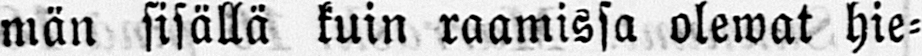män sisällä kuin raamissa olewat hie-
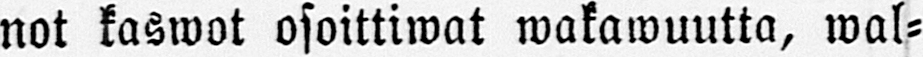not kaswot osoittiwat wakawuutta, wal-
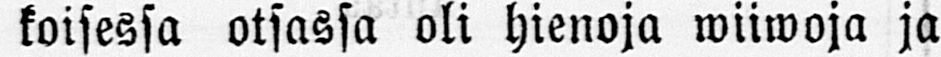koisessa otsassa oli hienoja wiiwoja ja
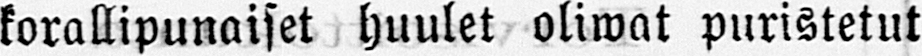korallipunaiset huulet oliwat puristetut
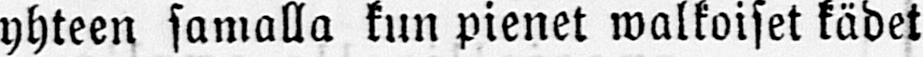yhteen samalla kun pienet walkoiset kädet
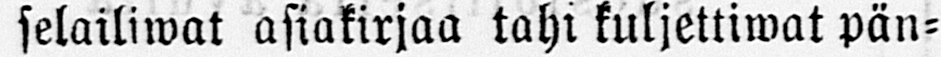selailiwat asiakirjaa tahi kuljettiwat pän-
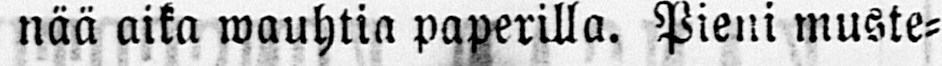nää aika wauhtia paperilla. Pieni muste-
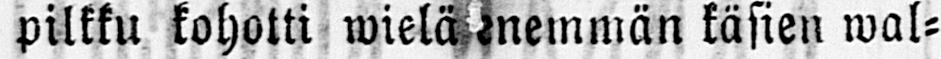pilkku kohotti wielä enemmän käsien wal-
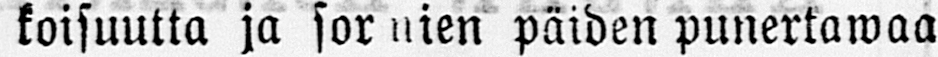koisuutta ja sor nien päiden punertawaa
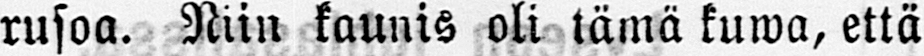rusoa. Niin kaunis oli tämä kuwa, että
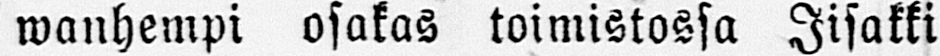wanhempi osakas toimistossa Iisakki
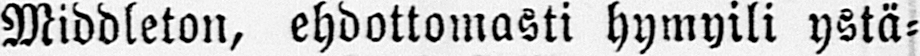Middleton, ehdottomasti hymyili ystä-
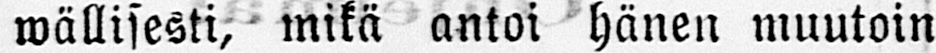wällisesti, mikä antoi hänen muutoin
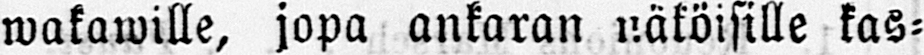wakawille, jopa ankaran näköisille kas-
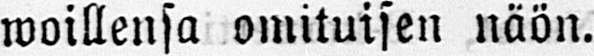woillensa omituisen näön.
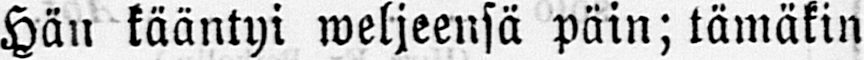Hän kääntyi weljeensä päin; tämäkin
